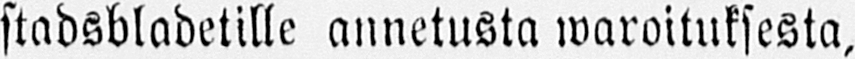stadsbladetille annetusta waroituksesta,
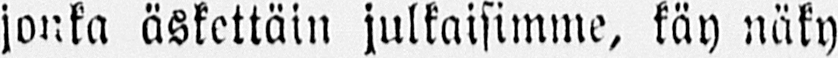jonka äskettäin julkaisimme, käy näky-
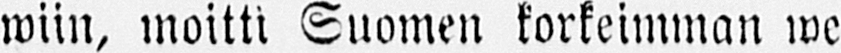wiin, moitti Suomen korkeimman we
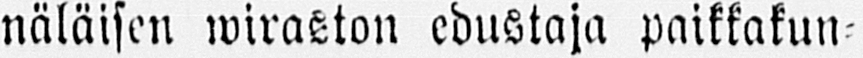näläisen wiraston edustaja paikkakun-
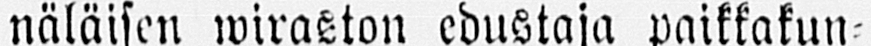nan lehtiä siitä, että ne pahansuo-
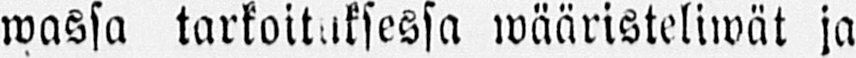wassa tarkoituksessa wääristeliwät ja
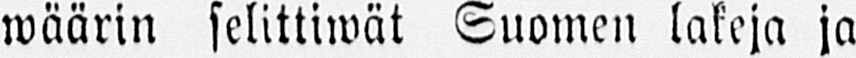wäärin selittiwät Suomen lakeja ja
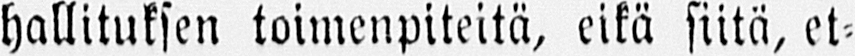hallituksen toimenpiteitä, eikä siitä, et-
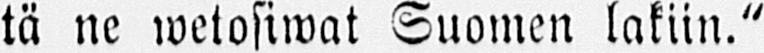tä ne wetosiwat Suomen lakiin."
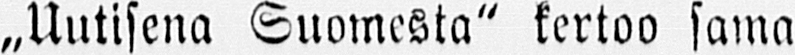„Uutisena Suomesta" kertoo sama
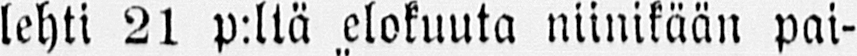lehti 21 p:ltä elokuuta niinikään pai-
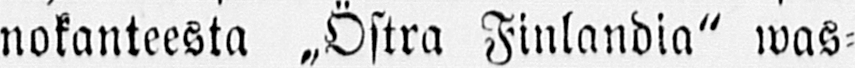nokanteesta „Östra Finlandia" was-
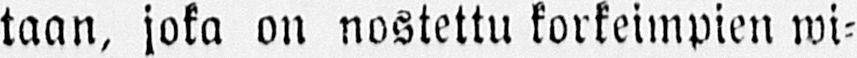taan, joka on nostettu korkeimpien wi-
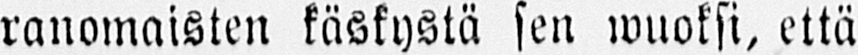ranomaisten käskystä sen wuoksi, että
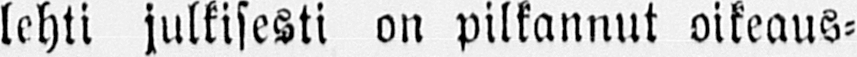lehti julkisesti on pilkannut oikeaus-
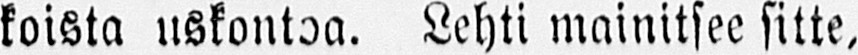koista uskontoa. Lehti mainitsee sitte,
